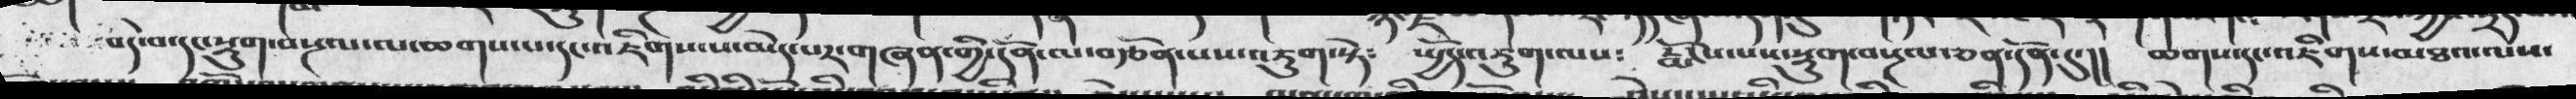བདེ་བ་དང་སྡུག་བསྔལ་ལ་ཆགས་པ་དང་འཇིགས་པ་མེད་པར་གཞན་གྱི་དོན་ལ་བརྩོན་པས་འཇུག་སྟེ༴    སྤྱོད་འདུག་ལས༴   རྨོངས་པས་སྡུག་བསྔལ་ཅན་དོན་དུ་།།   ཆགས་དང་འཇིགས་མཐའ་ལས་
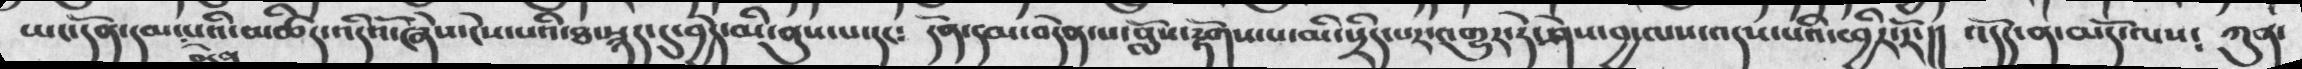ཡང་དོན་དམ་བདེན་པའི་མཚིད་འདིའོ་ཞེས་ངེས་པའི་ཐ་སྙད་དུ་བྱེད་མི་ནུས་པ་དང༴   དོན་དམ་བདེན་པ་བློས་རྟོགས་པ་མི་སྲིད་པར་འགྱུར་ཏེ་ཤེས་བྱ་ལས་འདས་པའི་ཕྱིར་རོ་།།   འདོད་ན་མདོ་ལས༴   ཀུན་
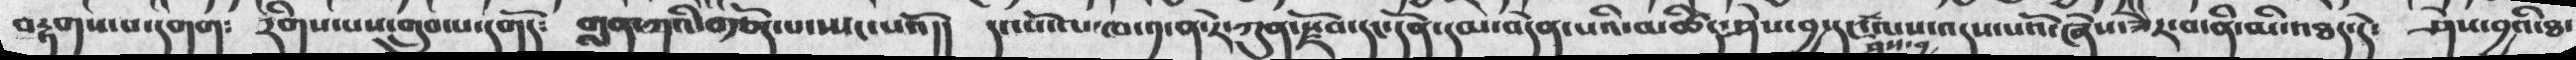བརྟགས་པ་དགག༴  རིགས་པས་གྲུབ་པ་དགོད༴   གླན་ཀའི་བརྩོད་པ་སྤང་པའོ།།   དང་པོ་ལ་ཁ་༡་ན་རེ་ཀུན་རྫོབ་དང་དོན་དམ་བདེན་པའི་མཚིད་ཤེས་བྱ་དང་ཤེས་བྱ་ལས་འདས་པའོ་ཞེས་ཟེར་བ་ནི་མི་འཐད་དེ་  ཤེས་བྱའི་ཐ་
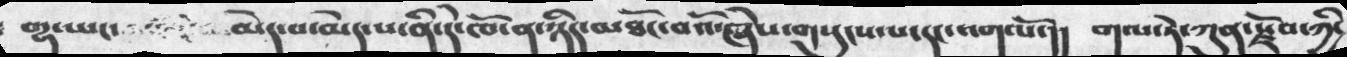གྷ་ཡང་      མེད་པ་མེད་པ་ནི་དེ་ཁོ་ན་ཉིད་མཐོང་བའོ་ཞེས་གསུངས་པ་དང་འགལཔ་།།   གལ་ཏེ་ཀུན་རྗོབ་ཀྱི་
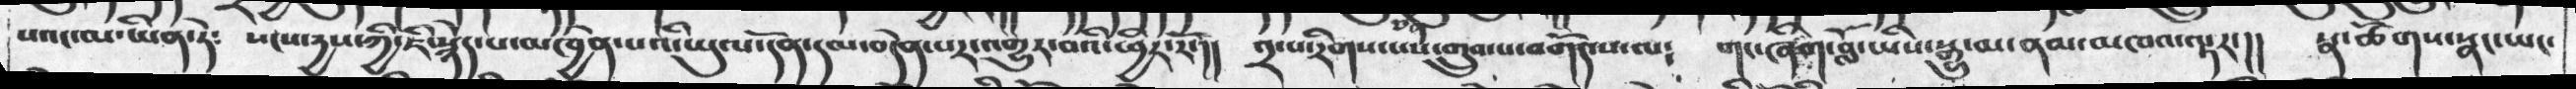པའང་མ་ཡིན་ཏེ༴   སངས་རྱས་ཀྱི་ཇི་སྙེད་པ་མཁྱེན་པའི་ཡུལ་དོན་དམ་བདེན་པར་འགྱུར་བའི་ཕྱིར་རོ་།།   ༢་པ་རིགས་པས་གྲུབ་པ་བགོད་པ་ལ༴  གང་ཞིག་བློ་ཡིས་སྒྱུ་མ་ནམ་མཁའ་ལྟར་།།   སྣ་ཚོགས་སྣང་ཡང་
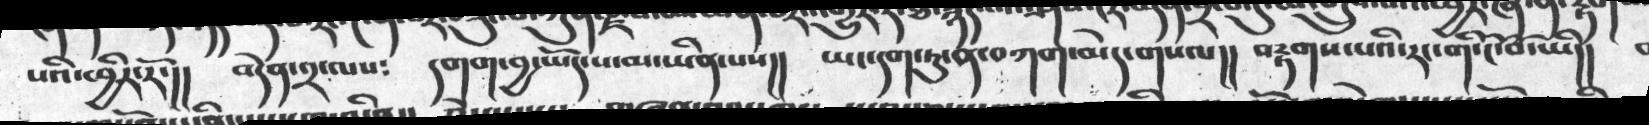པའི་ཕྱིར་རོ་།།   བདེན་༢་ལས༴  དགག་བྱ་ཡོད་པ་མ་ཡིན་པས།།   ཡང་དག་ཏུ་ན་བཀག་མེད་གསལ།།   བརྟགས་པའི་རང་གི་ངོ་བོ་ཡི།།
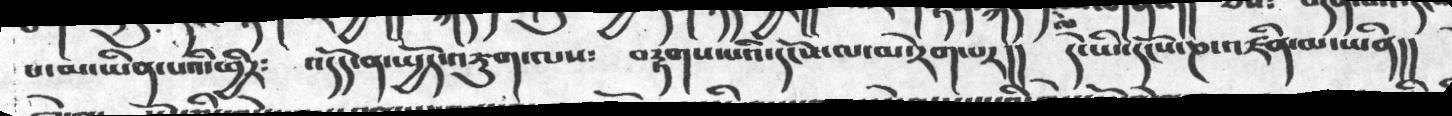པ་མ་ཡིན་པའི་ཕྱིར༴   འདོད་ན་ཡྱོད་འཇུག་ལས༴  བརྟགས་པའི་དངོས་ལ་མ་རེག་པར།།    དེ་ཡི་དངོས་ཎ་འཛིན་མ་ཡིན།།
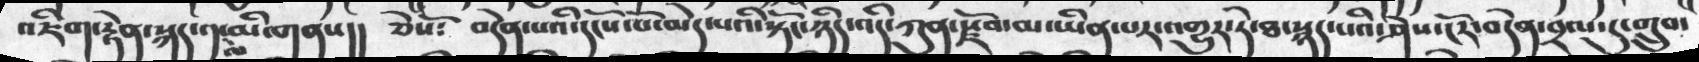འཇིག་རྟེན་སྐད་༡་ལ་མི་གནས།།  ཅེསོ༴  བདེན་པའི་དངོས་པོ་མེད་པའི་སྟོང་ཉིད་འདི་ཀུན་སྫོབ་མ་ཡིན་པར་འགྱུར་ཏེ་ཐ་སྙད་པའི་ཤེས་ངོར་བདེན་བྲལ་དུ་གྲུབ་
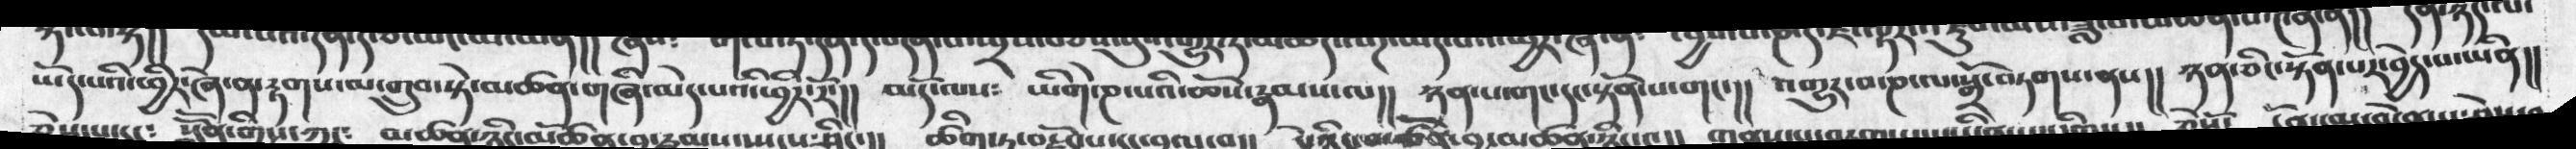ཡོད་པའི་ཕྱིར་ཞེ་ན་རྟགས་མ་གྲུབ་སྟེ་མཚན་གཞི་མེད་པའི་ཕྱིར་རོ་།།  མདོ་ལས༴  ཡིགེ་ཎ་པའི་ཆོས་རྣམས་ལ།།  ཉན་༷པ་གང་དང་སྟོན་པ་གང་།།   འགྱུར་བ་ཎ་ལ་སྒྲོ་བཏགས་ནས།།  ཉན་ཅིང་སྟོན་པར་བྱེད་པ་ཡིན།།
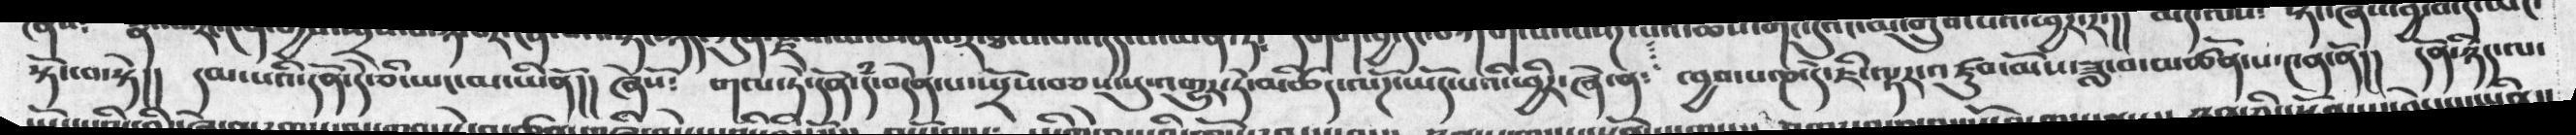སྟོང་བ་སྟེ།།   དམ་པའི་དོན་དེ་ཅི་ཡང་མ་ཡིན་ནོ།།   ཞེསོ༴   གལ་ཏེ་དོན་དཾ་བདེན་པ་ཡྲོས་བཅས་སུ་འགྱུར་ཏེ་མཚིད་ལོཌ་ཡོད་པའི་ཕྱིར་ཞེ་ན༴   ཁྱབ་པ་ཎ་དེ་ཇི་ལྟར་འཛུབ་མོས་ཟླ་བ་མཚོན་པ་༤ན་ནོ།།  དོན་ཉིད་ལ
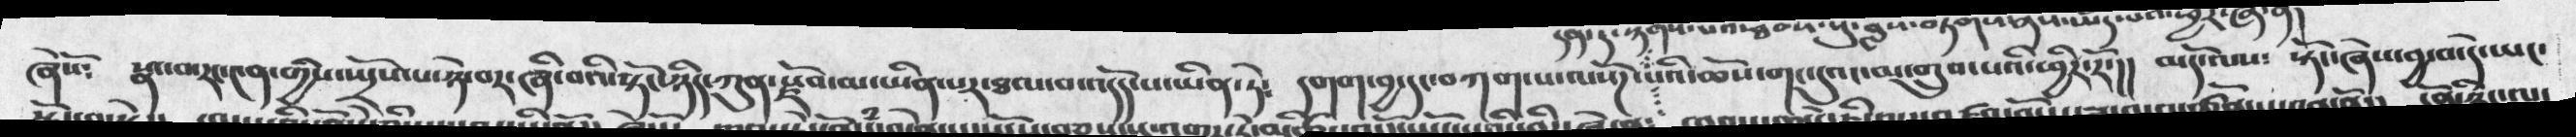ཞེསོ་   སྣང་བ་རང་༤ན་གྱིས་ཡྲོས་པ་ཉེ་བར་ཞི་བའི་སྟོང་ཉིད་ཀུན་སྫོབ་མ་ཡིན་པར་ཐལ་བ་འདོད་པ་ཡིན་ཏེ་   དགག་བྱ་དང་བཀག་པ་ལསོཌ་པའི་ཆོས་གང་དུའང་མ་གྲུབ་པའི་ཕྱིར་རོ་།།  མདོ་ལས་  སྟོང་ཞེས་བྱ་བ་དེ་ཡང་
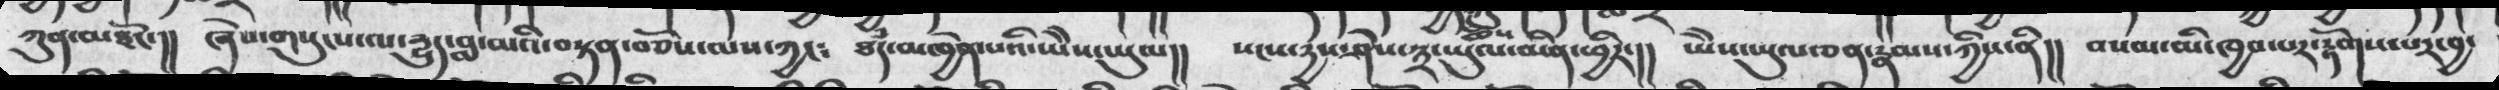ཀུན་མཐོང་།།   ཞེས་གསུངས་ལ་རྱུད་བླ་མའི་བསྟན་བཅོས་ལས་ཀྱང་  ཐཾད་མཁྱེན་པའི་ཡེེས་ཡུལ།།  སངས་རྱས་ཤེས་༣་ཡུལ་མིན་ཕྱིར་།།  ཡེེས་ཡུལ་ཅན་རྣམས་ཀྱིས་ནི།།  བསམ་མི་ཁྱབ་པར་རྟོགས་པར་བྱ་
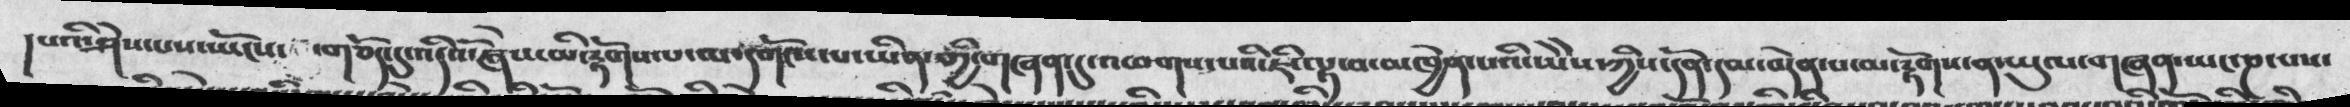།པའི་ཤེས་པས་སྤོངས་  གཅོད་དུ་འདིའོ་ཞེས་མི་རྟོགས་པ་ལ་དགོངས་པ་ཡིན་གྱི་གཞན་དུ་འཕགས་པའི་ཇི་ལྟ་བ་མཁྱེན་༷པའི་ཡེེས་ཀྱིས་དོན་དམ་བདེན་པ་མ་རྟོགས་ན་ཡུལ་གཞན་ཡང་ཎ་པས་
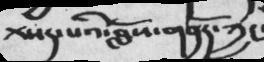སད་པའི་བློས་གནོད་ཀྱང་
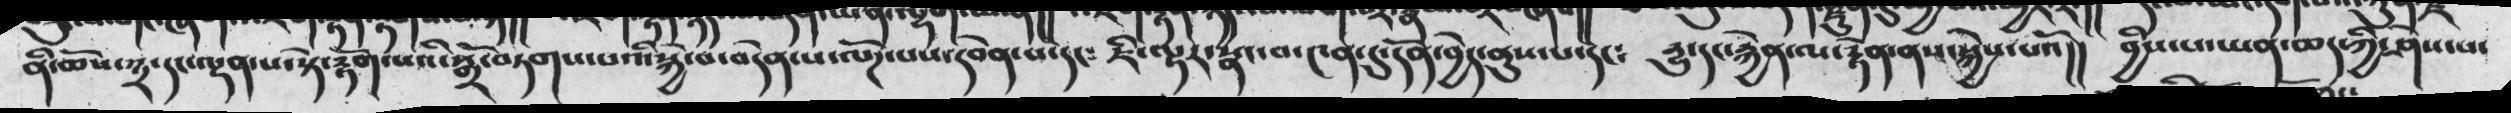ནི་ཆོས༣་དང་ལྡན་པ་སྟེ་རྟོག་པའི་སྒྲོ་བཏགས་པའི་སྐྱེ་བ་བདེན་པ་ལོཌ་པས་དབེན་པ་དང༴   ཇི་ལྟར་སྣང་བ་༤ན་དུ་དོན་བྱེད་ནུས་པ་དང༴   དྱུ་དང་རྐྱེན་ལ་རྟེན་ནས་སྐྱེས་པའོ།།  བྱིས་པ་ཡན་ཆད་ཀྱི་ཤེས་པ་
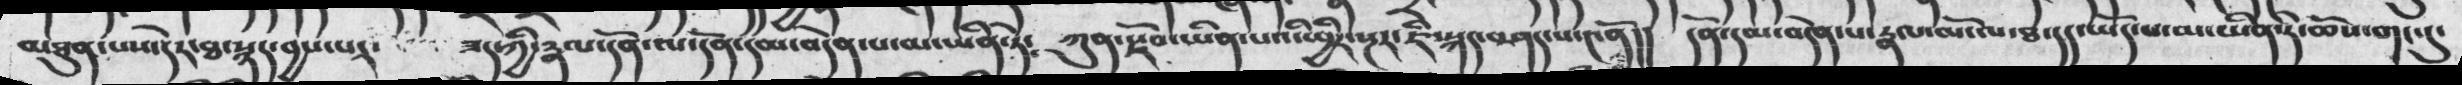མཐུན་པས་དེར་ཐ་སྙད་བྱས་པར་      ཟད་ཀྱི་རྣལ་དོན་ལ་དོན་དམ་བདེན་པ་མ་ཡིན་ཏེ༴   ཀུན་རྫོབ་ཡིན་པའི་ཕྱིར་སྔར་ཇི་སྐད་བཤད་པ་༤ནོ།།  དོན་དམ་བདེན་པ་རྣལ་མོ་ལ་ཐ་དད་ཡོད་པ་མ་ཡིན་ཏེ་ཆོས་གང་དུ་
